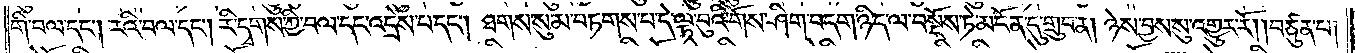གི་བལ་དང༌། རའི་བལ་དང༌། རི་དྲགས་ཀྱི་བལ་དང་འདྲེས་པ་དང༌། ཐགས་སུ་མ་བཏགས་པ་དེ་ལྟ་བུའི་གོས་ཤིག་བདག་ཉིད་ལ་བསྔོས་ཏེ་མངོན་དུ་གྲུབ་ན། ཉེས་བྱས་སུ་འགྱུར་རོ། །བཙུན་པ།
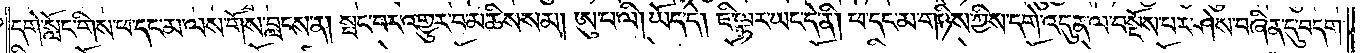དགེ་སློང་གིས་ཕ་དང་མ་ལས་གོས་བླངས་ན། སྤང་བར་འགྱུར་བ་མཆིས་སམ། ཨུ་པ་ལི། ཡོད་དེ། ཇི་ལྟར་ཡང་དེ་ནི། ཕ་དང་མ་གཉིས་ཀྱིས་དགེ་འདུན་ལ་བསྔོས་པར་ཤེས་བཞིན་དུ་བདག་
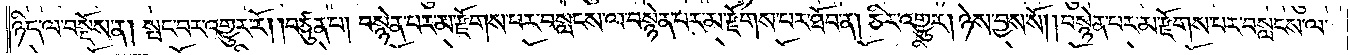ཉིད་ལ་བསྔོས་ན། སྤང་བར་འགྱུར་རོ། །བཙུན་པ། བསྙེན་པར་མ་རྫོགས་པར་བསླངས་ལ་བསྙེན་པར་མ་རྫོགས་པར་ཐོབ་ན། ཅིར་འགྱུར། ཉེས་བྱས་སོ། །བསྙེན་པར་མ་རྫོགས་པར་བསླངས་ལ་
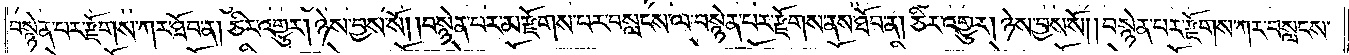བསྙེན་པར་རྫོགས་ཀར་ཐོབ་ན། ཅིར་འགྱུར། ཉེས་བྱས་སོ། །བསྙེན་པར་མ་རྫོགས་པར་བསླངས་ལ་བསྙེན་པར་རྫོགས་ནས་ཐོབ་ན། ཅིར་འགྱུར། ཉེས་བྱས་སོ། །བསྙེན་པར་རྫོགས་ཀར་བསླངས་
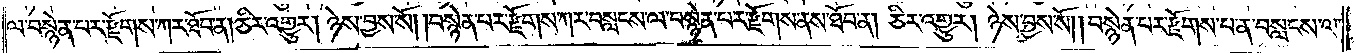ལ་བསྙེན་པར་རྫོགས་ཀར་ཐོབ་ན། ཅིར་འགྱུར། ཉེས་བྱས་སོ། །བསྙེན་པར་རྫོགས་ཀར་བསླངས་ལ་བསྙེན་པར་རྫོགས་ནས་ཐོབ་ན། ཅིར་འགྱུར། ཉེས་བྱས་སོ། །བསྙེན་པར་རྫོགས་པ་ན་བསླངས་ལ་
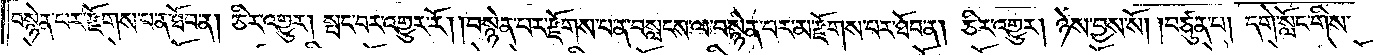བསྙེན་པར་རྫོགས་པ་ན་ཐོབ་ན། ཅིར་འགྱུར། སྤང་བར་འགྱུར་རོ། །བསྙེན་པར་རྫོགས་པ་ན་བསླངས་ལ་བསྙེན་པར་མ་རྫོགས་པར་ཐོབ་ན། ཅིར་འགྱུར། ཉེས་བྱས་སོ། །བཙུན་པ། དགེ་སློང་གིས་
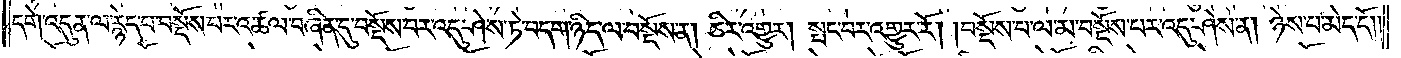དགེ་འདུན་ལ་རྙེད་པ་བསྔོས་པར་འཚལ་བཞིན་དུ་བསྔོས་པར་འདུ་ཤེས་ཏེ་བདག་ཉིད་ལ་བསྔོས་ན། ཅིར་འགྱུར། སྤང་བར་འགྱུར་རོ། །བསྔོས་པ་ལ་མ་བསྔོས་པར་འདུ་ཤེས་ན། ཉེས་པ་མེད་དོ།
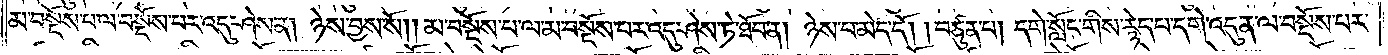མ་བསྔོས་པ་ལ་བསྔོས་པར་འདུ་ཤེས་ན། ཉེས་བྱས་སོ། །མ་བསྔོས་པ་ལ་མ་བསྔོས་པར་འདུ་ཤེས་ཏེ་ཐོབ་ན། ཉེས་པ་མེད་དོ། །བཙུན་པ། དགེ་སློང་གིས་རྙེད་པ་དགེ་འདུན་ལ་བསྔོས་པར་
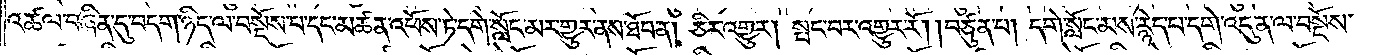འཚལ་བཞིན་དུ་བདག་ཉིད་ལ་བསྔོས་པ་དང་མཚན་འཕོས་ཏེ་དགེ་སློང་མར་གྱུར་ནས་ཐོབ་ན། ཅིར་འགྱུར། སྤང་བར་འགྱུར་རོ། །བཙུན་པ། དགེ་སློང་མས་རྙེད་པ་དགེ་འདུན་ལ་བསྔོས་
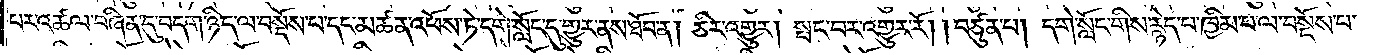པར་འཚལ་བཞིན་དུ་བདག་ཉིད་ལ་བསྔོས་པ་དང་མཚན་འཕོས་ཏེ་དགེ་སློང་དུ་གྱུར་ནས་ཐོབ་ན། ཅིར་འགྱུར། སྤང་བར་འགྱུར་རོ། །བཙུན་པ། དགེ་སློང་གིས་རྙེད་པ་ཁྱིམ་པ་ལ་བསྔོས་པ་
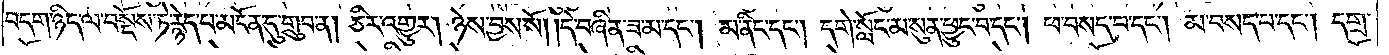བདག་ཉིད་ལ་བསྔོས་ཏེ་རྙེད་པ་མངོན་དུ་གྲུབ་ན། ཅིར་འགྱུར། ཉེས་བྱས་སོ། །དེ་བཞིན་ཟ་མ་དང༌། མ་ནིང་དང༌། དགེ་སློང་མ་སུན་ཕྱུང་བ་དང༌། ཕ་བསད་པ་དང༌། མ་བསད་པ་དང༌། དགྲ་
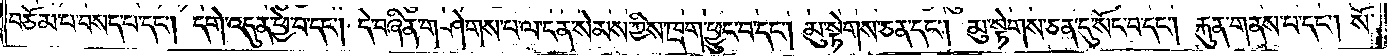བཅོམ་པ་བསད་པ་དང༌། དགེ་འདུན་ཕྱེ་བ་དང༌། དེ་བཞིན་གཤེགས་པ་ལ་ངན་སེམས་ཀྱིས་ཁྲག་ཕྱུང་བ་དང༌། མུ་སྟེགས་ཅན་དང༌། མུ་སྟེགས་ཅན་དུ་སོང་བ་དང༌། རྐུན་གནས་པ་དང༌། སོ་
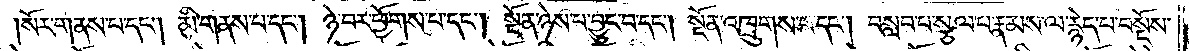།སོར་གནས་པ་དང༌། མི་གནས་པ་དང༌། ཉེ་བར་ཕྱོགས་པ་དང༌། སྔོན་ཉེས་པ་བྱུང་བ་དང༌། སྔོན་འཁྲུགས་པ་དང༌། བསླབ་པ་སྩལ་པ་རྣམས་ལ་རྙེད་པ་བསྔོས་
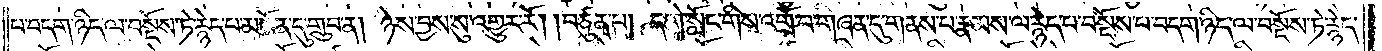པ་བདག་ཉིད་ལ་བསྔོས་ཏེ་རྙེད་པ་མངོན་དུ་གྲུབ་ན། ཉེས་བྱས་སུ་འགྱུར་རོ། །བཙུན་པ། དགེ་སློང་གིས་འགྲོ་བ་གཞན་དུ་གནས་པ་རྣམས་ལ་རྙེད་པ་བསྔོས་པ་བདག་ཉིད་ལ་བསྔོས་ཏེ་རྙེད་
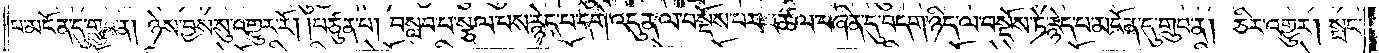པར་མངོན་དུ་གྲུབ་ན། ཉེས་བྱས་སུ་འགྱུར་རོ། །བཙུན་པ། བསླབ་པ་སྩལ་པས་རྙེད་པ་དགེ་འདུན་ལ་བསྔོས་པར་འཚལ་བཞིན་དུ་བདག་ཉིད་ལ་བསྔོས་ཏེ་རྙེད་པ་མངོན་དུ་གྲུབ་ན། ཅིར་འགྱུར། སྤང་
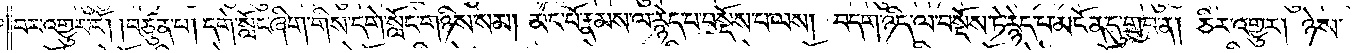བར་འགྱུར་རོ། །བཙུན་པ། དགེ་སློང་ཞིག་གིས་དགེ་སློང་གཉིས་སམ། མང་པོ་རྣམས་ལ་རྙེད་པ་བསྔོས་པ་ལས། བདག་ཉིད་ལ་བསྔོས་ཏེ་རྙེད་པ་མངོན་དུ་གྲུབ་ན། ཅིར་འགྱུར། ཉེས་
